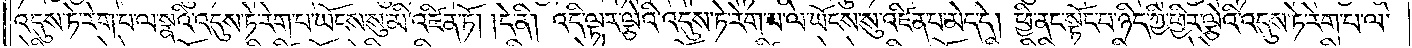འདུས་ཏེ་རེག་པ་ལ་སྣའི་འདུས་ཏེ་རེག་པ་ཡོངས་སུ་མི་འཛིན་ཏོ། །དེ་ནི། འདི་ལྟར་ལྕེའི་འདུས་ཏེ་རེག་པ་ལ་ཡོངས་སུ་འཛིན་པ་མེད་དེ། ཕྱི་ནང་སྟོང་པ་ཉིད་ཀྱི་ཕྱིར་ལྕེའི་འདུས་ཏེ་རེག་པ་ལ་
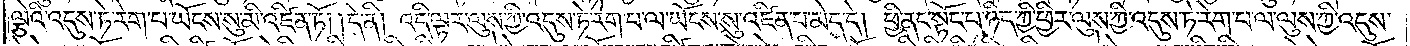ལྕེའི་འདུས་ཏེ་རེག་པ་ཡོངས་སུ་མི་འཛིན་ཏོ། །དེ་ནི། འདི་ལྟར་ལུས་ཀྱི་འདུས་ཏེ་རེག་པ་ལ་ཡོངས་སུ་འཛིན་པ་མེད་དེ། ཕྱི་ནང་སྟོང་པ་ཉིད་ཀྱི་ཕྱིར་ལུས་ཀྱི་འདུས་ཏེ་རེག་པ་ལ་ལུས་ཀྱི་འདུས་
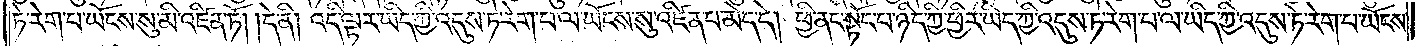ཏེ་རེག་པ་ཡོངས་སུ་མི་འཛིན་ཏོ། །དེ་ནི། འདི་ལྟར་ཡིད་ཀྱི་འདུས་ཏེ་རེག་པ་ལ་ཡོངས་སུ་འཛིན་པ་མེད་དེ། ཕྱི་ནང་སྟོང་པ་ཉིད་ཀྱི་ཕྱིར་ཡིད་ཀྱི་འདུས་ཏེ་རེག་པ་ལ་ཡིད་ཀྱི་འདུས་ཏེ་རེག་པ་ཡོངས་
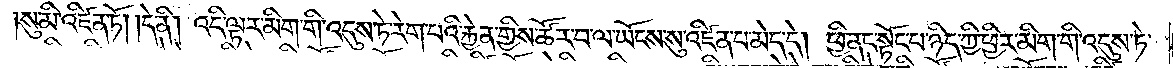སུ་མི་འཛིན་ཏོ། །དེ་ནི། འདི་ལྟར་མིག་གི་འདུས་ཏེ་རེག་པའི་རྐྱེན་གྱིས་ཚོར་བ་ལ་ཡོངས་སུ་འཛིན་པ་མེད་དེ། ཕྱི་ནང་སྟོང་པ་ཉིད་ཀྱི་ཕྱིར་མིག་གི་འདུས་ཏེ་
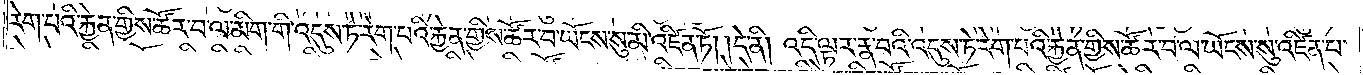རེག་པའི་རྐྱེན་གྱིས་ཚོར་བ་ལ་མིག་གི་འདུས་ཏེ་རེག་པའི་རྐྱེན་གྱིས་ཚོར་བ་ཡོངས་སུ་མི་འཛིན་ཏོ། །དེ་ནི། འདི་ལྟར་རྣ་བའི་འདུས་ཏེ་རེག་པའི་རྐྱེན་གྱིས་ཚོར་བ་ལ་ཡོངས་སུ་འཛིན་པ་
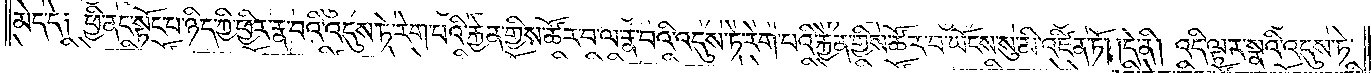མེད་དེ། ཕྱི་ནང་སྟོང་པ་ཉིད་ཀྱི་ཕྱིར་རྣ་བའི་འདུས་ཏེ་རེག་པའི་རྐྱེན་གྱིས་ཚོར་བ་ལ་རྣ་བའི་འདུས་ཏེ་རེག་པའི་རྐྱེན་གྱིས་ཚོར་བ་ཡོངས་སུ་མི་འཛིན་ཏོ། །དེ་ནི། འདི་ལྟར་སྣའི་འདུས་ཏེ་
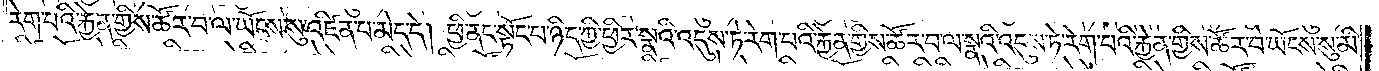རེག་པའི་རྐྱེན་གྱིས་ཚོར་བ་ལ་ཡོངས་སུ་འཛིན་པ་མེད་དེ། ཕྱི་ནང་སྟོང་པ་ཉིད་ཀྱི་ཕྱིར་སྣའི་འདུས་ཏེ་རེག་པའི་རྐྱེན་གྱིས་ཚོར་བ་ལ་སྣའི་འདུས་ཏེ་རེག་པའི་རྐྱེན་གྱིས་ཚོར་བ་ཡོངས་སུ་མི་
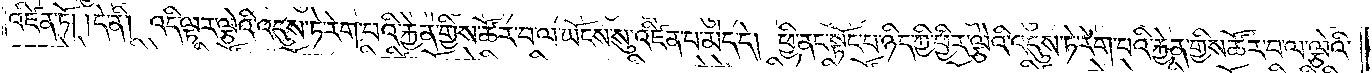འཛིན་ཏོ། །དེ་ནི། འདི་ལྟར་ལྕེའི་འདུས་ཏེ་རེག་པའི་རྐྱེན་གྱིས་ཚོར་བ་ལ་ཡོངས་སུ་འཛིན་པ་མེད་དེ། ཕྱི་ནང་སྟོང་པ་ཉིད་ཀྱི་ཕྱིར་ལྕེའི་འདུས་ཏེ་རེག་པའི་རྐྱེན་གྱིས་ཚོར་བ་ལ་ལྕེའི་
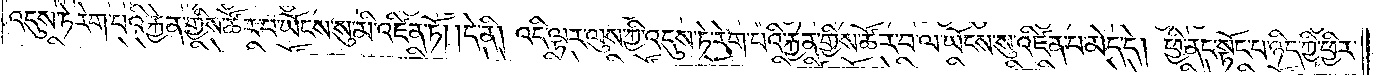འདུས་ཏེ་རེག་པའི་རྐྱེན་གྱིས་ཚོར་བ་ཡོངས་སུ་མི་འཛིན་ཏོ། །དེ་ནི། འདི་ལྟར་ལུས་ཀྱི་འདུས་ཏེ་རེག་པའི་རྐྱེན་གྱིས་ཚོར་བ་ལ་ཡོངས་སུ་འཛིན་པ་མེད་དེ། ཕྱི་ནང་སྟོང་པ་ཉིད་ཀྱི་ཕྱིར་
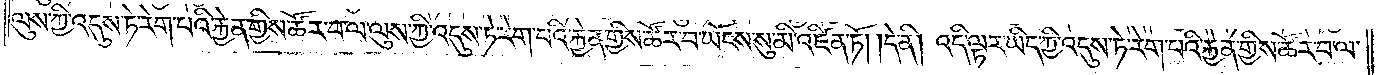ལུས་ཀྱི་འདུས་ཏེ་རེག་པའི་རྐྱེན་གྱིས་ཚོར་བ་ལ་ལུས་ཀྱི་འདུས་ཏེ་རེག་པའི་རྐྱེན་གྱིས་ཚོར་བ་ཡོངས་སུ་མི་འཛིན་ཏོ། །དེ་ནི། འདི་ལྟར་ཡིད་ཀྱི་འདུས་ཏེ་རེག་པའི་རྐྱེན་གྱིས་ཚོར་བ་ལ་
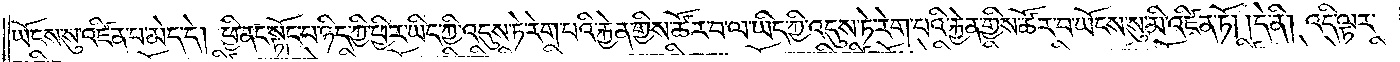ཡོངས་སུ་འཛིན་པ་མེད་དེ། ཕྱི་ནང་སྟོང་པ་ཉིད་ཀྱི་ཕྱིར་ཡིད་ཀྱི་འདུས་ཏེ་རེག་པའི་རྐྱེན་གྱིས་ཚོར་བ་ལ་ཡིད་ཀྱི་འདུས་ཏེ་རེག་པའི་རྐྱེན་གྱིས་ཚོར་བ་ཡོངས་སུ་མི་འཛིན་ཏོ། །དེ་ནི། འདི་ལྟར་
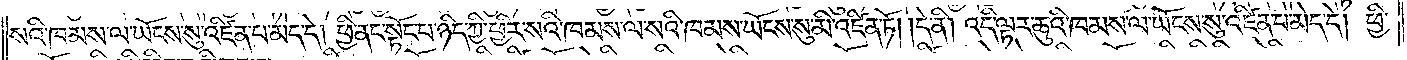སའི་ཁམས་ལ་ཡོངས་སུ་འཛིན་པ་མེད་དེ། ཕྱི་ནང་སྟོང་པ་ཉིད་ཀྱི་ཕྱིར་སའི་ཁམས་ལ་སའི་ཁམས་ཡོངས་སུ་མི་འཛིན་ཏོ། །དེ་ནི། འདི་ལྟར་ཆུའི་ཁམས་ལ་ཡོངས་སུ་འཛིན་པ་མེད་དེ། ཕྱི་
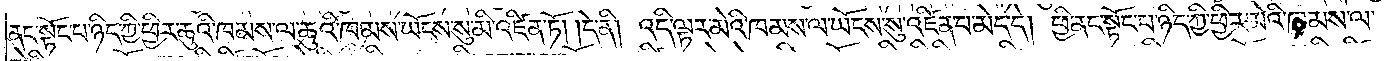ནང་སྟོང་པ་ཉིད་ཀྱི་ཕྱིར་ཆུའི་ཁམས་ལ་ཆུའི་ཁམས་ཡོངས་སུ་མི་འཛིན་ཏོ། །དེ་ནི། འདི་ལྟར་མེའི་ཁམས་ལ་ཡོངས་སུ་འཛིན་པ་མེད་དེ། ཕྱི་ནང་སྟོང་པ་ཉིད་ཀྱི་ཕྱིར་མེའི་ཁམས་ལ་
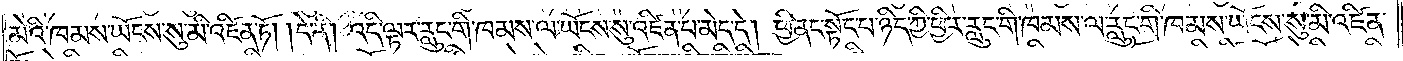མེའི་ཁམས་ཡོངས་སུ་མི་འཛིན་ཏོ། །དེ་ནི། འདི་ལྟར་རླུང་གི་ཁམས་ལ་ཡོངས་སུ་འཛིན་པ་མེད་དེ། ཕྱི་ནང་སྟོང་པ་ཉིད་ཀྱི་ཕྱིར་རླུང་གི་ཁམས་ལ་རླུང་གི་ཁམས་ཡོངས་སུ་མི་འཛིན་
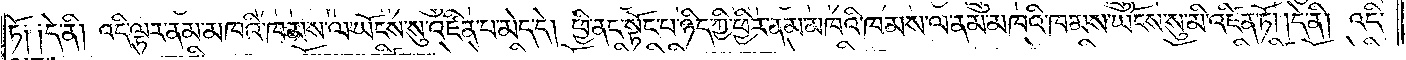ཏོ༑ ༑དེ་ནི། འདི་ལྟར་ནམ་མཁའི་ཁམས་ལ་ཡོངས་སུ་འཛིན་པ་མེད་དེ། ཕྱི་ནང་སྟོང་པ་ཉིད་ཀྱི་ཕྱིར་ནམ་མཁའི་ཁམས་ལ་ནམ་མཁའི་ཁམས་ཡོངས་སུ་མི་འཛིན་ཏོ། །དེ་ནི། འདི་
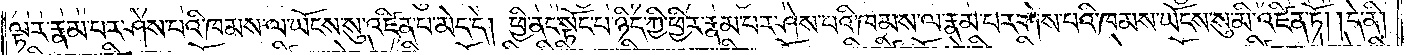ལྟར་རྣམ་པར་ཤེས་པའི་ཁམས་ལ་ཡོངས་སུ་འཛིན་པ་མེད་དེ། ཕྱི་ནང་སྟོང་པ་ཉིད་ཀྱི་ཕྱིར་རྣམ་པར་ཤེས་པའི་ཁམས་ལ་རྣམ་པར་ཤེས་པའི་ཁམས་ཡོངས་སུ་མི་འཛིན་ཏོ། །དེ་ནི།
